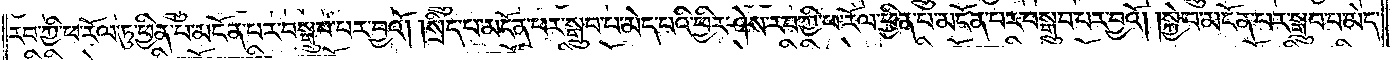རབ་ཀྱི་ཕ་རོལ་ཏུ་ཕྱིན་པ་མངོན་པར་བསྒྲུབ་པར་བྱའོ། །སྲིད་པ་མངོན་པར་སྒྲུབ་པ་མེད་པའི་ཕྱིར་ཤེས་རབ་ཀྱི་ཕ་རོལ་ཏུ་ཕྱིན་པ་མངོན་པར་བསྒྲུབ་པར་བྱའོ། །སྐྱེ་བ་མངོན་པར་སྒྲུབ་པ་མེད་
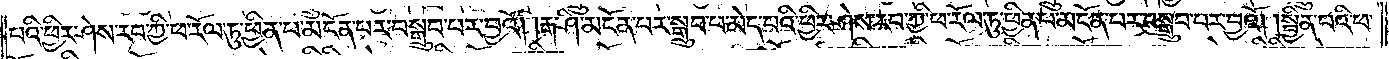པའི་ཕྱིར་ཤེས་རབ་ཀྱི་ཕ་རོལ་ཏུ་ཕྱིན་པ་མངོན་པར་བསྒྲུབ་པར་བྱའོ། །རྒ་ཤི་མངོན་པར་སྒྲུབ་པ་མེད་པའི་ཕྱིར་ཤེས་རབ་ཀྱི་ཕ་རོལ་ཏུ་ཕྱིན་པ་མངོན་པར་བསྒྲུབ་པར་བྱའོ། །སྦྱིན་པའི་ཕ་
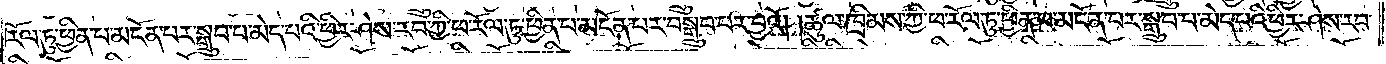རོལ་ཏུ་ཕྱིན་པ་མངོན་པར་སྒྲུབ་པ་མེད་པའི་ཕྱིར་ཤེས་རབ་ཀྱི་ཕ་རོལ་ཏུ་ཕྱིན་པ་མངོན་པར་བསྒྲུབ་པར་བྱའོ། །ཚུལ་ཁྲིམས་ཀྱི་ཕ་རོལ་ཏུ་ཕྱིན་པ་མངོན་པར་སྒྲུབ་པ་མེད་པའི་ཕྱིར་ཤེས་རབ་
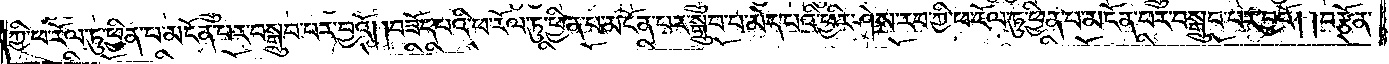ཀྱི་ཕ་རོལ་ཏུ་ཕྱིན་པ་མངོན་པར་བསྒྲུབ་པར་བྱའོ། །བཟོད་པའི་ཕ་རོལ་ཏུ་ཕྱིན་པ་མངོན་པར་སྒྲུབ་པ་མེད་པའི་ཕྱིར་ཤེས་རབ་ཀྱི་ཕ་རོལ་ཏུ་ཕྱིན་པ་མངོན་པར་བསྒྲུབ་པར་བྱའོ། །བརྩོན་
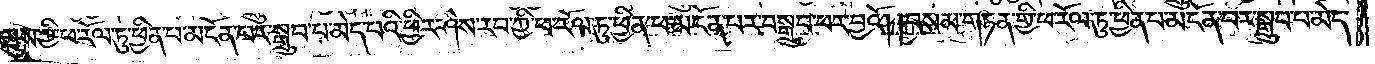འགྲུས་ཀྱི་ཕ་རོལ་ཏུ་ཕྱིན་པ་མངོན་པར་སྒྲུབ་པ་མེད་པའི་ཕྱིར་ཤེས་རབ་ཀྱི་ཕ་རོལ་ཏུ་ཕྱིན་པ་མངོན་པར་བསྒྲུབ་པར་བྱའོ། །བསམ་གཏན་གྱི་ཕ་རོལ་ཏུ་ཕྱིན་པ་མངོན་པར་སྒྲུབ་པ་མེད་
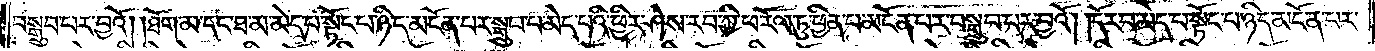བསྒྲུབ་པར་བྱའོ། །ཐོག་མ་དང་ཐ་མ་མེད་པ་སྟོང་པ་ཉིད་མངོན་པར་སྒྲུབ་པ་མེད་པའི་ཕྱིར་ཤེས་རབ་ཀྱི་ཕ་རོལ་ཏུ་ཕྱིན་པ་མངོན་པར་བསྒྲུབ་པར་བྱའོ། །དོར་བ་མེད་པ་སྟོང་པ་ཉིད་མངོན་པར་
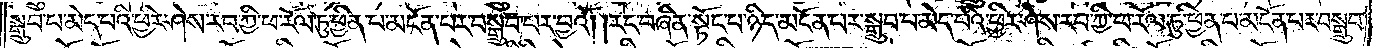སྒྲུབ་པ་མེད་པའི་ཕྱིར་ཤེས་རབ་ཀྱི་ཕ་རོལ་ཏུ་ཕྱིན་པ་མངོན་པར་བསྒྲུབ་པར་བྱའོ། །རང་བཞིན་སྟོང་པ་ཉིད་མངོན་པར་སྒྲུབ་པ་མེད་པའི་ཕྱིར་ཤེས་རབ་ཀྱི་ཕ་རོལ་ཏུ་ཕྱིན་པ་མངོན་པར་བསྒྲུབ་
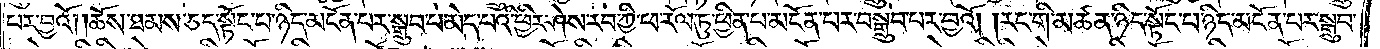པར་བྱའོ། །ཆོས་ཐམས་ཅད་སྟོང་པ་ཉིད་མངོན་པར་སྒྲུབ་པ་མེད་པའི་ཕྱིར་ཤེས་རབ་ཀྱི་ཕ་རོལ་ཏུ་ཕྱིན་པ་མངོན་པར་བསྒྲུབ་པར་བྱའོ། །རང་གི་མཚན་ཉིད་སྟོང་པ་ཉིད་མངོན་པར་སྒྲུབ་
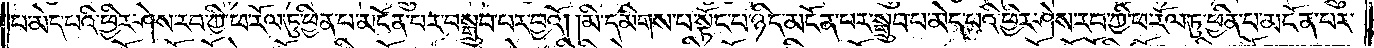པ་མེད་པའི་ཕྱིར་ཤེས་རབ་ཀྱི་ཕ་རོལ་ཏུ་ཕྱིན་པ་མངོན་པར་བསྒྲུབ་པར་བྱའོ། །མི་དམིགས་པ་སྟོང་པ་ཉིད་མངོན་པར་སྒྲུབ་པ་མེད་པའི་ཕྱིར་ཤེས་རབ་ཀྱི་ཕ་རོལ་ཏུ་ཕྱིན་པ་མངོན་པར་
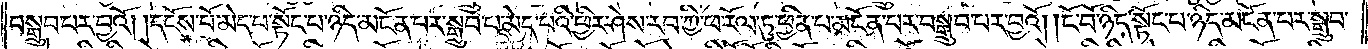བསྒྲུབ་པར་བྱའོ། །དངོས་པོ་མེད་པ་སྟོང་པ་ཉིད་མངོན་པར་སྒྲུབ་པ་མེད་པའི་ཕྱིར་ཤེས་རབ་ཀྱི་ཕ་རོལ་ཏུ་ཕྱིན་པ་མངོན་པར་བསྒྲུབ་པར་བྱའོ། །ངོ་བོ་ཉིད་སྟོང་པ་ཉིད་མངོན་པར་སྒྲུབ་
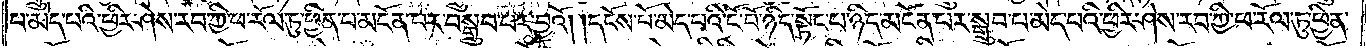པ་མེད་པའི་ཕྱིར་ཤེས་རབ་ཀྱི་ཕ་རོལ་ཏུ་ཕྱིན་པ་མངོན་པར་བསྒྲུབ་པར་བྱའོ། །དངོས་པོ་མེད་པའི་ངོ་བོ་ཉིད་སྟོང་པ་ཉིད་མངོན་པར་སྒྲུབ་པ་མེད་པའི་ཕྱིར་ཤེས་རབ་ཀྱི་ཕ་རོལ་ཏུ་ཕྱིན་
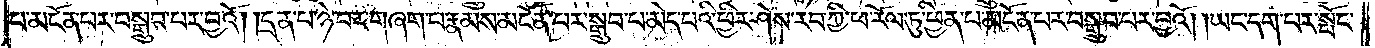པ་མངོན་པར་བསྒྲུབ་པར་བྱའོ། །དྲན་པ་ཉེ་བར་གཞག་པ་རྣམས་མངོན་པར་སྒྲུབ་པ་མེད་པའི་ཕྱིར་ཤེས་རབ་ཀྱི་ཕ་རོལ་ཏུ་ཕྱིན་པ་མངོན་པར་བསྒྲུབ་བར་བྱའོ། །ཡང་དག་པར་སྤོང་
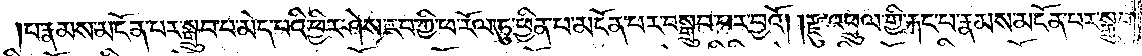བ་རྣམས་མངོན་པར་སྒྲུབ་པ་མེད་པའི་ཕྱིར་ཤེས་རབ་ཀྱི་ཕ་རོལ་ཏུ་ཕྱིན་པ་མངོན་པར་བསྒྲུབ་པར་བྱའོ། །རྫུ་འཕྲུལ་གྱི་རྐང་པ་རྣམས་མངོན་པར་སྒྲུབ་
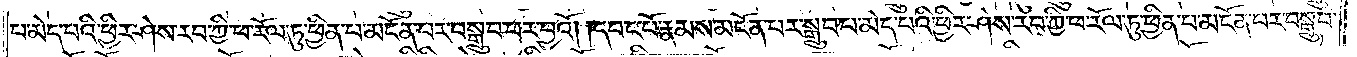པ་མེད་པའི་ཕྱིར་ཤེས་རབ་ཀྱི་ཕ་རོལ་ཏུ་ཕྱིན་པ་མངོན་པར་བསྒྲུབ་པར་བྱའོ། །དབང་པོ་རྣམས་མངོན་པར་སྒྲུབ་པ་མེད་པའི་ཕྱིར་ཤེས་རབ་ཀྱི་ཕ་རོལ་ཏུ་ཕྱིན་པ་མངོན་པར་བསྒྲུབ་
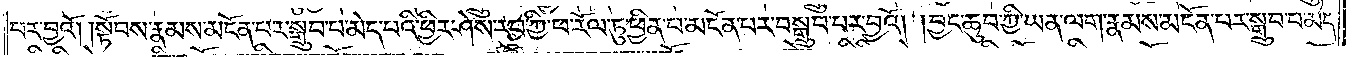པར་བྱའོ། །སྟོབས་རྣམས་མངོན་པར་སྒྲུབ་པ་མེད་པའི་ཕྱིར་ཤེས་རབ་ཀྱི་ཕ་རོལ་ཏུ་ཕྱིན་པ་མངོན་པར་བསྒྲུབ་པར་བྱའོ། །བྱང་ཆུབ་ཀྱི་ཡན་ལག་རྣམས་མངོན་པར་སྒྲུབ་པ་མེད་
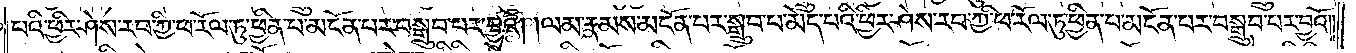པའི་ཕྱིར་ཤེས་རབ་ཀྱི་ཕ་རོལ་ཏུ་ཕྱིན་པ་མངོན་པར་བསྒྲུབ་པར་བྱའོ། །ལམ་རྣམས་མངོན་པར་སྒྲུབ་པ་མེད་པའི་ཕྱིར་ཤེས་རབ་ཀྱི་ཕ་རོལ་ཏུ་ཕྱིན་པ་མངོན་པར་བསྒྲུབ་པར་བྱའོ། །
